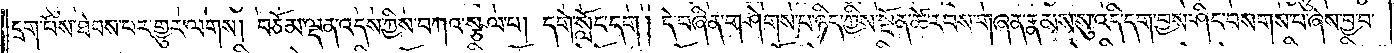དྲག་པོས་ཐེབས་པར་གྱུར་ལགས། བཅོམ་ལྡན་འདས་ཀྱིས་བཀའ་སྩལ་པ། དགེ་སློང་དག། དེ་བཞིན་གཤེགས་པ་ཉིད་ཀྱིས་སྔོན་ཚེ་རབས་གཞན་རྣམས་སུ་འདི་དག་བྱས་ཤིང་བསགས་པ་ཞེས་བྱ་བ་
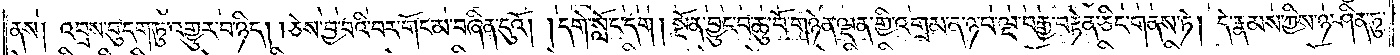ནས། འབྲས་བུ་དག་ཏུ་འགྱུར་བ་ཉིད། །ཅེས་བྱ་བའི་བར་གོང་མ་བཞིན་དུའོ། །དགེ་སློང་དག། སྔོན་བྱུང་བ་ཆུ་བོ་གཉེན་ལྡན་གྱི་འགྲམ་ན་ཉ་པ་ལྔ་བརྒྱ་བརྟེན་ཅིང་གནས་ཏེ། དེ་རྣམས་ཀྱིས་ཉ་ཤིན་ཏུ་
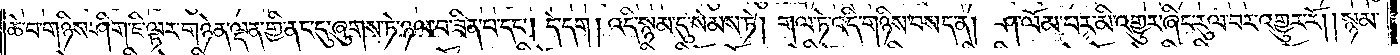ཆེ་བ་གཉིས་ཤིག་ཇི་ལྟར་གཉེན་ལྡན་གྱི་ནང་དུ་ཞུགས་ཏེ་ཉལ་བ་ཟིན་པ་དང༌། དེ་དག། འདི་སྙམ་དུ་སེམས་ཏེ། གལ་ཏེ་འདི་གཉིས་བསད་ན། ཤ་ལོམ་པར་མི་འགྱུར་ཞིང་རུལ་བར་འགྱུར་རོ། །སྙམ་
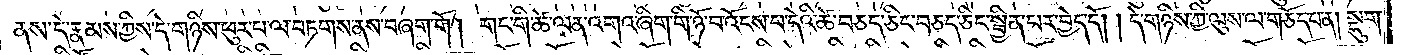ནས་དེ་རྣམས་ཀྱིས་དེ་གཉིས་ཕུར་པ་ལ་བཏགས་ནས་བཞག་གོ། གང་གི་ཚེ་ལན་འགའ་ཞིག་གི་ཉོ་བ་འོངས་པ་དེའི་ཚེ་བཅད་ཅིང་བཅད་ཅིང་སྦྱིན་པར་བྱེད་དོ། །དེ་གཉིས་ཀྱི་ལུས་ལ་གཅོད་པ་ན། སྡུག་
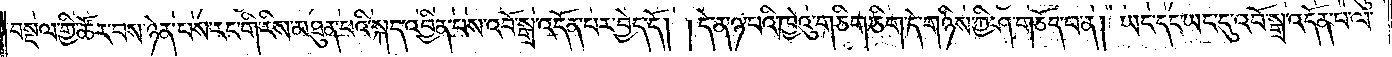བསྔལ་གྱི་ཚོར་བས་ཉེན་པས་རང་གི་རིས་མཐུན་པའི་སྐད་འབྱིན་པས་འབོ་སྒྲ་འདོན་པར་བྱེད་དོ། །དེ་ན་ཉ་པའི་ཁྱེའུ་གཅིག་ཅིག་དེ་གཉིས་ཀྱི་ཤ་གཅོད་པ་ན། ཡང་དང་ཡང་དུ་འབོ་སྒྲ་འདོན་པ་ལ་
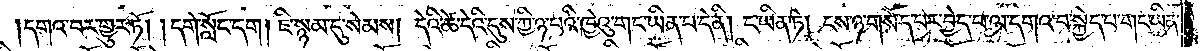།དགའ་བར་གྱུར་ཏོ། །དགེ་སློང་དག། ཇི་སྙམ་དུ་སེམས། དེའི་ཚེ་དེའི་དུས་ཀྱི་ཉ་བའི་ཁྱེའུ་གང་ཡིན་པ་དེ་ནི། ང་ཡིན་ཏེ། ངས་ཉ་གསོད་པར་བྱད་པ་ལ་དགའ་བ་སྐྱེད་པ་གང་ཡིན་
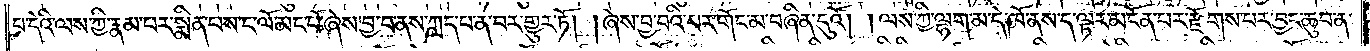པ་དེའི་ལས་ཀྱི་རྣམ་པར་སྨིན་པས་ང་ལོ་མང་པོ་ཞེས་བྱ་བ་ནས་ཀླད་པ་ན་བར་གྱུར་ཏོ། །ཞེས་བྱ་བའི་བར་གོང་མ་བཞིན་དུའོ། །ལས་ཀྱི་ལྷག་མ་དེ་ཁོ་ནས་ད་ལྟར་མངོན་པར་རྫོགས་པར་བྱང་ཆུབ་ན་
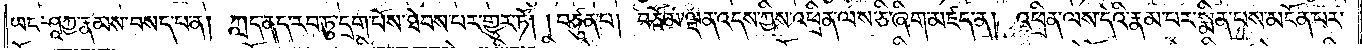ཡང་ཤཱཀྱ་རྣམས་བསད་པ་ན། ཀླད་ནད་རབ་ཏུ་དྲག་པོས་ཐེབས་པར་གྱུར་ཏོ། །བཙུན་པ། བཅོམ་ལྡན་འདས་ཀྱིས་འཕྲིན་ལས་ཅི་ཞིག་མཛད་ན། འཕྲིན་ལས་དེའི་རྣམ་པར་སྨིན་པས་མངོན་པར་
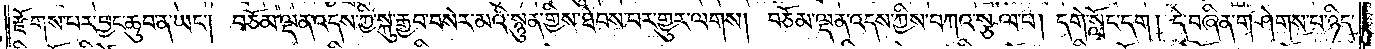རྫོགས་པར་བྱང་ཆུབ་ན་ཡང༌། བཅོམ་ལྡན་འདས་ཀྱི་སྐུ་རྒྱབ་བསེར་མའི་སྙུན་གྱིས་ཐེབས་པར་གྱུར་ལགས། བཅོམ་ལྡན་འདས་ཀྱིས་བཀའ་སྩལ་པ། དགེ་སློང་དག། དེ་བཞིན་གཤེགས་པ་ཉིད་
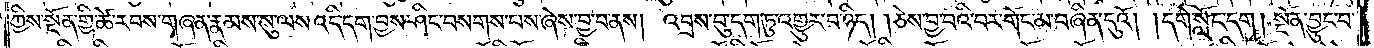ཀྱིས་སྔོན་གྱི་ཚེ་རབས་གཞན་རྣམས་སུ་ལས་འདི་དག་བྱས་ཤིང་བསགས་པས་ཞེས་བྱ་བ་ནས། འབྲས་བུ་དག་ཏུ་འགྱུར་བ་ཉིད། །ཅེས་བྱ་བའི་བར་གོང་མ་བཞིན་དུའོ། །དགེ་སློང་དག། སྔོན་བྱུང་བ་
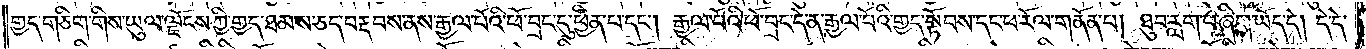གྱད་གཅིག་གིས་ཡུལ་ལྗོངས་ཀྱི་གྱད་ཐམས་ཅད་བརྡབས་ནས་རྒྱལ་པོའི་ཕོ་བྲང་དུ་ཕྱིན་པ་དང༌། རྒྱལ་པོའི་ཕོ་བྲང་དེ་ན་རྒྱལ་པོའི་གྱད་སྟོབས་དང་ཕ་རོལ་གནོན་པ། ཐུབ་རླག་པ་ཞིག་ཡོད་དེ། དེ་དེ་
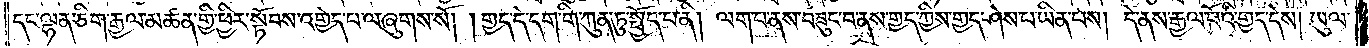དང་ལྷན་ཅིག་རྒྱལ་མཚན་གྱི་ཕྱིར་སྟོབས་འགྱེད་པ་ལ་ཞུགས་སོ། །གྱད་དེ་དག་གི་ཀུན་ཏུ་སྤྱོད་པ་ནི། ལག་པ་ནས་བཟུང་བ་ནས་གྱད་ཀྱིས་གྱད་ཤེས་པ་ཡིན་པས། དེ་ནས་རྒྱལ་པོའི་གྱད་དེས། ཡུལ་
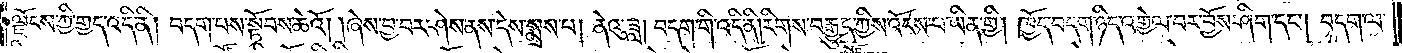ལྗོངས་ཀྱི་གྱད་འདི་ནི། བདག་པས་སྟོབས་ཆེའོ། །ཞེས་བྱ་བར་ཤེས་ནས་དེས་སྨྲས་པ། ནེའུ་ཟླ། བདག་གི་འདི་ནི། རིགས་བརྒྱུད་ཀྱིས་འོངས་པ་ཡིན་གྱི། ཁྱོད་བདག་ཉིད་འགྱེལ་བར་བྱོས་ཤིག་དང༌། བདག་ལ་
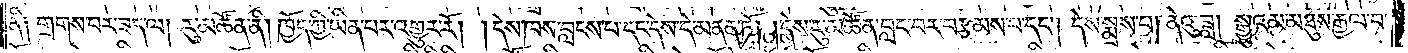ནི། གྲགས་པར་ཟད་ལ། རུ་མཚོན་ནི། ཁྱོད་ཀྱི་ཡིན་པར་འགྱུར་རོ། །དེས་ཁས་བླངས་པ་དང་དེས་དེ་མནན་ཏོ། །དེས་རུ་མཚོན་བླང་བར་བརྩམས་པ་དང༌། དེས་སྨྲས་པ། ནེའུ་ཟླ། སྒྱུའམ་མཐུས་རྒྱལ་བ་
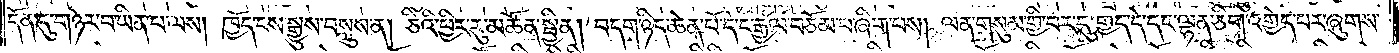དོན་དུ་གཉེར་བ་ཡིན་པ་ལས། ཁྱོད་ངས་སྒྱུས་བསླུས་ན། ཅིའི་ཕྱིར་རུ་མཚོན་སྦྱིན། བདག་ཉིད་ཆེན་པོ་དེ་ང་རྒྱལ་བཅོམ་པ་ཞིག་པས། ལན་གསུམ་གྱི་བར་དུ་གྱད་དེ་དང་ལྷན་ཅིག་འགྱེད་པར་ཞུགས་
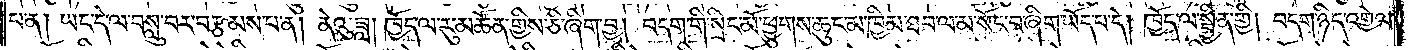པ་ན། ཡང་དེ་ལ་བསླུ་བར་བརྩམས་པ་ན། ནེའུ་ཟླ། ཁྱོད་ལ་རུ་མཚོན་གྱིས་ཅི་ཞིག་བྱ། བདག་སྲིང་མོ་ཕྱུགས་ཆུང་མ་ཁྱིམ་ཐབ་ལ་མ་སོང་བ་ཞིག་ཡོད་པ་དེ། ཁྱོད་ལ་སྦྱིན་གྱི། བདག་ཉིད་འགྱེལ་
